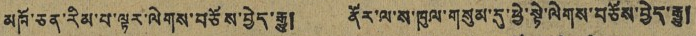མཁོ་ཅན་རིམ་པ་ལྟར་ལེགས་བཅོས་བྱེད་རྒྱུ། ནོར་ལ་ས་ཁུལ་གསུམ་དུ་ཕྱེ་སྟེ་ལེགས་བཅོས་བྱེད་རྒྱུ།
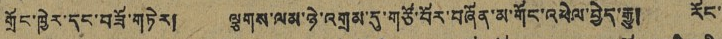གྲོང་ཁྱེར་དང་བཟོ་གཏེར། ལྕགས་ལམ་ཉེ་འགྲམ་དུ་གཙོ་བོར་བཞོན་མ་གོང་འཕེལ་བྱེད་རྒྱུ། རོང་
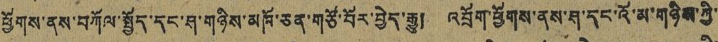ཕྱོགས་ནས་བཀོལ་སྤྱོད་དང་ཤ་གཉིས་མཁོ་ཅན་གཙོ་བོར་བྱེད་རྒྱུ། འབྲོག་ཕྱོགས་ནས་ཤ་དང་འོ་མ་གཉིས་ཀྱི་
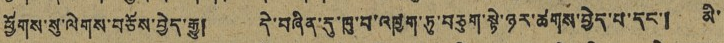ཕྱོགས་སུ་ལེགས་བཅོས་བྱེད་རྒྱུ། དེ་བཞིན་དུ་ཁྱུ་བ་འཁྱག་ཏུ་བཅུག་སྟེ་ཉར་ཚགས་བྱེད་པ་དང་། མི་
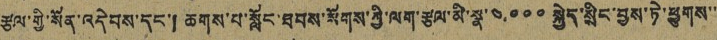རྩལ་གྱི་སོན་འདེབས་དང་། ཆགས་པ་སློང་ཐབས་སོགས་ཀྱི་ལག་རྩལ་མི་སྣ་༤.༠༠༠ སྐྱེད་སྲིང་བྱས་ཏེ་ཕྱུགས་་
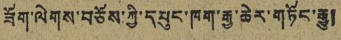ཟོག་ལེགས་བཅོས་ཀྱི་དཔུང་ཁག་རྒྱ་ཆེར་གཏོང་རྒྱུ།
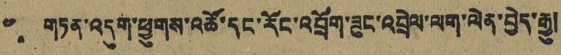༤. གཏན་འདུག་ཕྱུགས་འཚོ་དང་རོང་འབྲོག་ཟུང་འབྲེལ་ལག་ལེན་བྱེད་རྒྱུ།
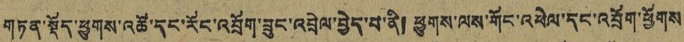གཏན་སྡོད་ཕྱུགས་འཚོ་དང་རོང་འབྲོག་ཟུང་འབྲེལ་བྱེད་པ་ནི། ཕྱུགས་ལས་གོང་འཕེལ་དང་འབྲོག་ཕྱོགས
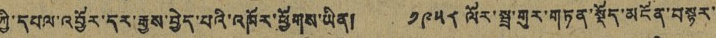ཀྱི་དཔལ་འབྱོར་དར་རྒྱས་བྱེད་པའི་འཁོར་ཕྱོགས་ཡིན། ༡༩༥༨ ལོར་སྦྲ་གུར་གཏན་སྡོད་མངོན་བསྟར་
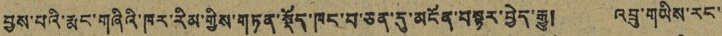བྱས་པའི་རྨང་གཞིའི་ཁར་རིམ་གྱསི་གཏན་སྡོད་ཁང་པ་ཅན་དུ་མངོན་བསྟར་བྱེད་རྒྱུ། འབྲུ་གཡིས་རང་་
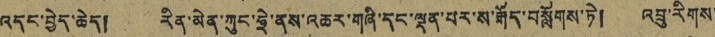འདང་བྱེད་ཆེད། རིན་མེན་ཀུང་ཧྲེ་ནས་འཆར་གཞི་དང་ལྡན་པར་ས་རྒོད་བསློགས་ཏེ། འབྲུ་རིགས་
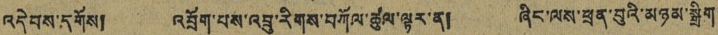འདེབས་དགོས། འབྲོག་པས་འབྲུ་རིགས་བཀོལ་ཚུལ་ལྟར་ན། ཞིང་ལས་ཕྲན་བུའི་མཉམ་སྒྲིག་
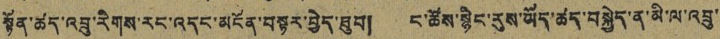སྟོན་ཚད་འབྲུ་རིགས་རང་འདང་མངོན་བསྟར་བྱེད་ཐུབ། ང་ཚོས་སྙིང་རུས་ཡོད་ཚད་བསྐྱེད་ན་མི་ལ་འབྲུ་
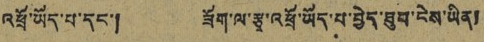འཕྲོ་ཡོད་པ་དང་། ཟོག་ལ་རྩྭ་འཕྲོ་ཡོད་པ་བྱེད་ཐུབ་ངེས་ཡིན།
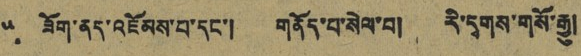༥. ཟོག་ནད་འཇོམས་པ་དང་། གནོད་པ་སེལ་བ། རི་དྭགས་གསོ་རྒྱུ།
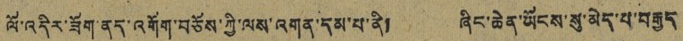ལོ་འདིར་ཟོག་ནད་འགོག་བཅོས་ཀྱི་ལས་འགན་དམ་པ་ནི། ཞིང་ཆེན་ཡོངས་སུ་མེད་པ་བརྒྱད
